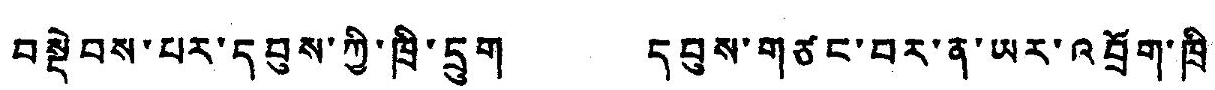བསྡེབས་པར་དབུས་ཀྱི་ཁྲི་དྲུག དབུས་གཙང་བར་ན་ཡར་འབྲོག་ཁྲི་
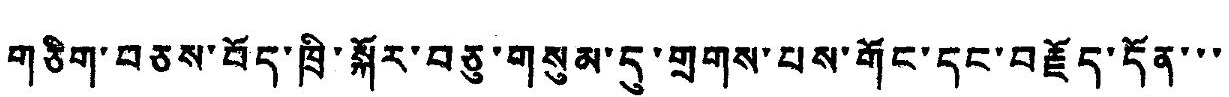གཅིག་བཅས་བོད་ཁྲི་སྐོར་བཅུ་གསུམ་དུ་གྲགས་པས་གོང་དང་བརྗོད་དོན་་་
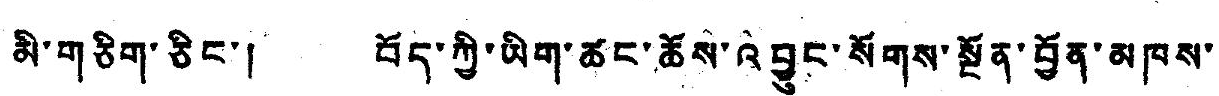མི་གཅིག་ཅིང་། བོད་ཀྱི་ཡིག་ཚང་ཆོས་འབྱུང་སོགས་སྔོན་བྱོན་མཁས་
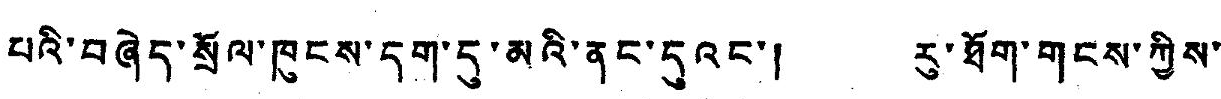པའི་བཞེད་སྲོལ་ཁུངས་དག་དུ་མའི་ནང་དུའང་། རུ་ཐོག་གངས་ཀྱིས་
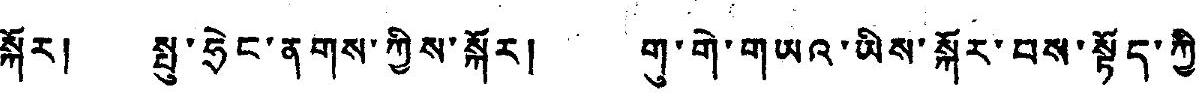སྐོར། སྤུ་ཧྲེང་ནགས་ཀྱིས་སྐོར་།་གུ་གེ་གཡའ་ཡིས་སྐོར་བས་སྟོད་ཀྱི་
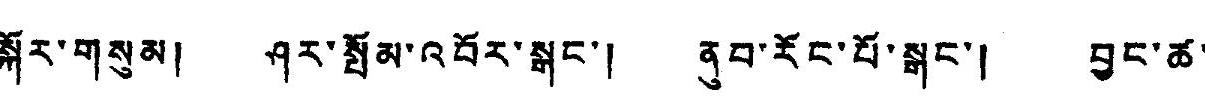སྐོར་གསུམ། ཤར་སྤོམ་འབོར་སྒང་།་ནུབ་རོང་པོ་སྒང་།་བྱང་ཚ་
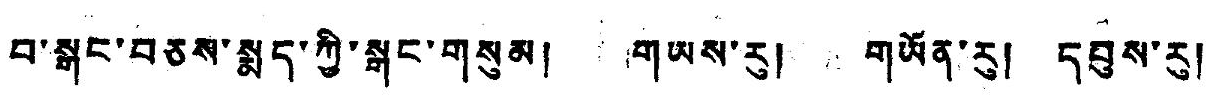བ་སྒང་བཅས་སྨད་ཀྱི་སྒང་གསུམ། གཡས་རུ། གཡོན་རུ། དབུས་རུ།
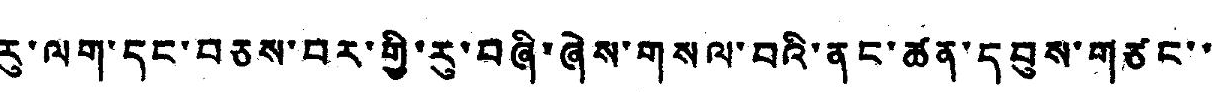རུ་ལག་དང་བཅས་བར་གྱི་རུ་བཞི་ཞེས་གསལ་བའི་ནང་ཚན་དབུས་གཙང་་
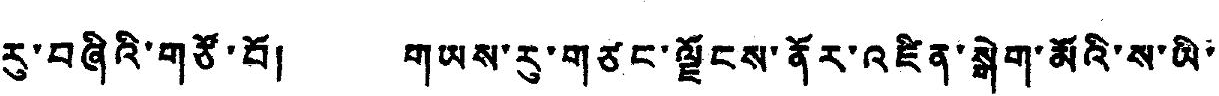རུ་བཞིའི་གཙོ་བོ། གཡས་རུ་གཙང་ལྗོངས་ནོར་འཛིན་སྒེག་མོའི་ས་ཡི་
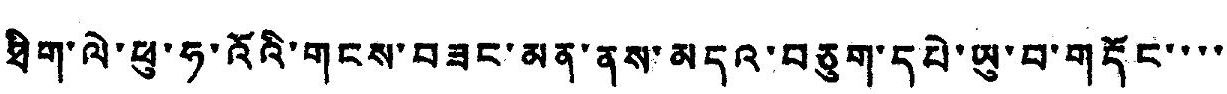ཐིག་ལེ་ཕུ་ཧ་འོའི་གངས་བཟང་མན་ནས་མདའ་བཅུག་དཔེ་ཡུ་བ་གདོང་་་་
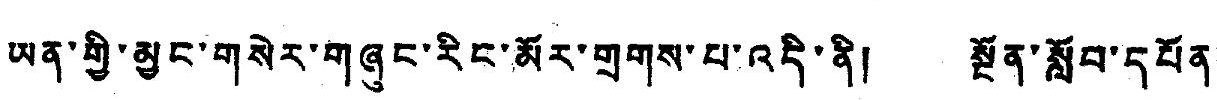ཡན་གྱི་མྱང་གསེར་གཞུང་རིང་མོར་གྲགས་པ་འདི་ནི། སྔོན་སློབ་དཔོན་
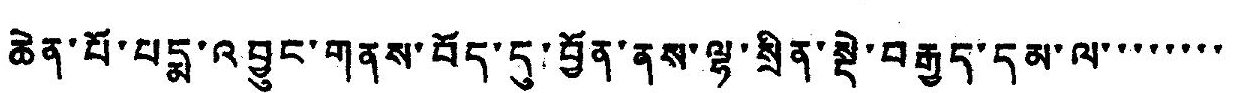ཆེན་པོ་པདྨ་འབྱུང་གནས་བོད་དུ་བྱོན་ནས་ལྷ་སྲིན་སྡེ་བརྒྱད་དམ་ལ་་་་་་་་
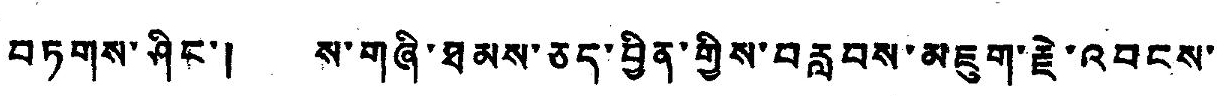བཏགས་ཤིང་། ས་གཞི་ཐམས་ཅད་བྱིན་གྱིས་བརླབས་མཇུག་རྗེ་འབངས་
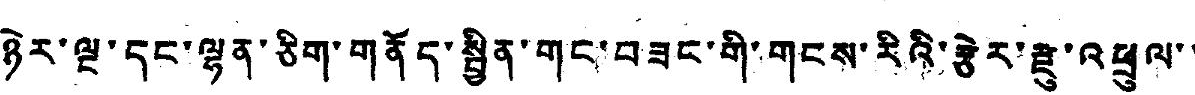ཉེར་ལྔ་དང་ལྷན་ཅིག་གནོད་སྦྱིན་གང་བཟང་གི་གངས་རིའི་རྩེར་རྫུ་འཕྲུལ་་
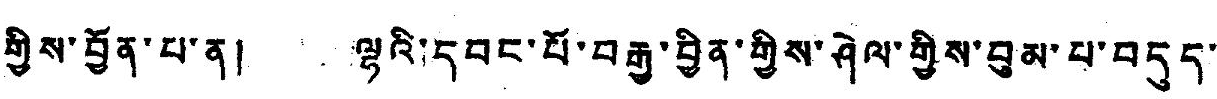གྱིས་བྱོན་པ་ན། ལྷའི་དབང་པོ་བརྒྱ་བྱིན་གྱིས་ཤེལ་གྱིས་བུམ་པ་བདུད་
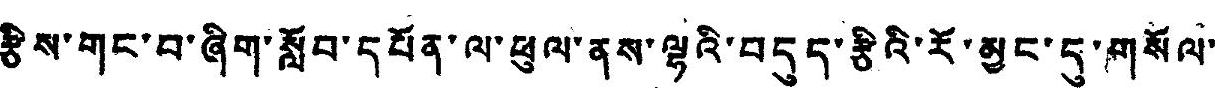རྩིས་གང་བ་ཞིག་སློབ་དཔོན་ལ་ཕུལ་ནས་ལྷའི་བདུད་རྩིའི་རོ་མྱང་དུ་གསོལ་
